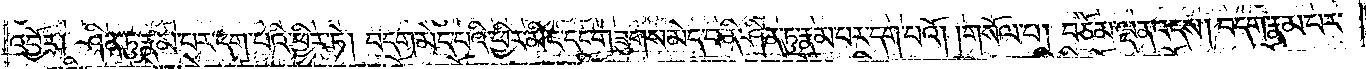འབྱོར། ཤིན་ཏུ་རྣམ་པར་དག་པའི་ཕྱིར་ཏེ། བདག་མེད་པའི་ཕྱིར་མིང་དང་གཟུགས་མེད་པ་ནི་ཤིན་ཏུ་རྣམ་པར་དག་པའོ། །གསོལ་པ། བཅོམ་ལྡན་འདས། བདག་རྣམ་པར་
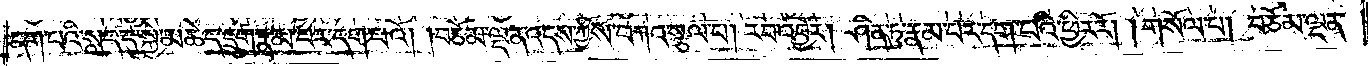དག་པའི་སླད་དུ་སྐྱེ་མཆེད་དྲུག་རྣམ་པར་དག་པའོ། །བཅོམ་ལྡན་འདས་ཀྱིས་བཀའ་སྩལ་པ། རབ་འབྱོར། ཤིན་ཏུ་རྣམ་པར་དག་པའི་ཕྱིར་རོ། །གསོལ་པ། བཅོམ་ལྡན་
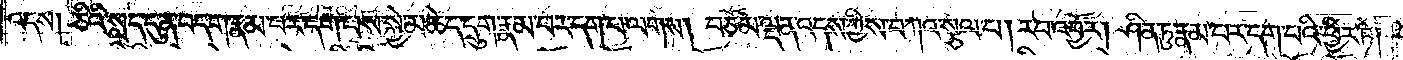འདས། ཅིའི་སླད་དུ་ན་བདག་རྣམ་པར་དག་པས་སྐྱེ་མཆེད་དྲུག་རྣམ་པར་དག་པ་ལགས། བཅོམ་ལྡན་འདས་ཀྱིས་བཀའ་སྩལ་པ། རབ་འབྱོར། ཤིན་ཏུ་རྣམ་པར་དག་པའི་ཕྱིར་ཏེ།
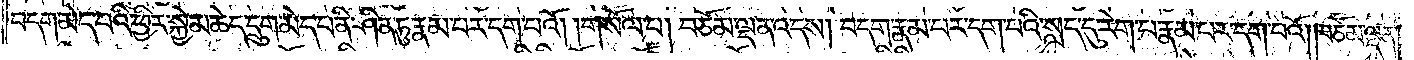བདག་མེད་པའི་ཕྱིར་སྐྱེ་མཆེད་དྲུག་མེད་པ་ནི་ཤིན་ཏུ་རྣམ་པར་དག་པའོ། །གསོལ་པ། བཅོམ་ལྡན་འདས། བདག་རྣམ་པར་དག་པའི་སླད་དུ་རེག་པ་རྣམ་པར་དག་པའོ། །བཅོམ་ལྡན་
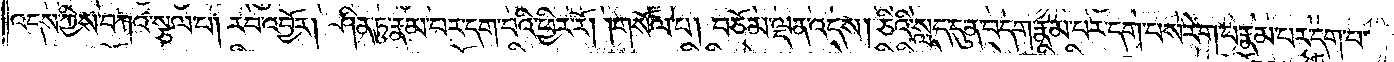འདས་ཀྱིས་བཀའ་སྩལ་པ། རབ་འབྱོར། ཤིན་ཏུ་རྣམ་པར་དག་པའི་ཕྱིར་རོ། །གསོལ་པ། བཅོམ་ལྡན་འདས། ཅིའི་སླད་དུ་ན་བདག་རྣམ་པར་དག་པས་རེག་པ་རྣམ་པར་དག་པ་
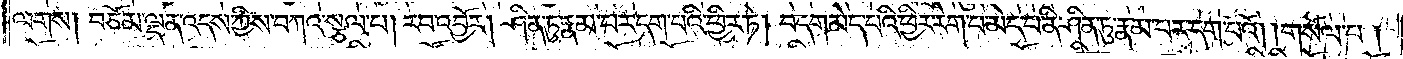ལགས། བཅོམ་ལྡན་འདས་ཀྱིས་བཀའ་སྩལ་པ། རབ་འབྱོར། ཤིན་ཏུ་རྣམ་པར་དག་པའི་ཕྱིར་ཏེ། བདག་མེད་པའི་ཕྱིར་རེག་པ་མེད་པ་ནི་ཤིན་ཏུ་རྣམ་པར་དག་པའོ། །གསོལ་པ།
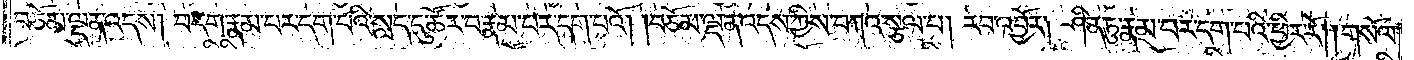བཅོམ་ལྡན་འདས། བདག་རྣམ་པར་དག་པའི་སླད་དུ་ཚོར་བ་རྣམ་པར་དག་པའོ། །བཅོམ་ལྡན་འདས་ཀྱིས་བཀའ་སྩལ་པ། རབ་འབྱོར། ཤིན་ཏུ་རྣམ་པར་དག་པའི་ཕྱིར་རོ། །གསོལ་
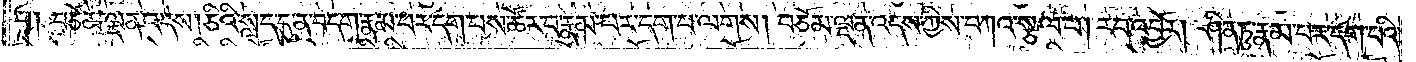པ། བཅོམ་ལྡན་འདས། ཅིའི་སླད་དུ་ན་བདག་རྣམ་པར་དག་པས་ཚོར་བ་རྣམ་པར་དག་པ་ལགས། བཅོམ་ལྡན་འདས་ཀྱིས་བཀའ་སྩལ་པ། རབ་འབྱོར། ཤིན་ཏུ་རྣམ་པར་དག་པའི་
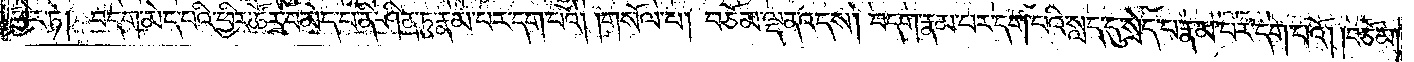ཕྱིར་ཏེ། བདག་མེད་པའི་ཕྱིར་ཚོར་བ་མེད་པ་ནི་ཤིན་ཏུ་རྣམ་པར་དག་པའོ། །གསོལ་པ། བཅོམ་ལྡན་འདས། བདག་རྣམ་པར་དག་པའི་སླད་དུ་སྲེད་པ་རྣམ་པར་དག་པའོ། །བཅོམ་
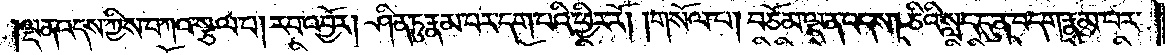ལྡན་འདས་ཀྱིས་བཀའ་སྩལ་པ། རབ་འབྱོར། ཤིན་ཏུ་རྣམ་པར་དག་པའི་ཕྱིར་རོ། །གསོལ་པ། བཅོམ་ལྡན་འདས། ཅིའི་སླད་དུ་ན་བདག་རྣམ་པར་
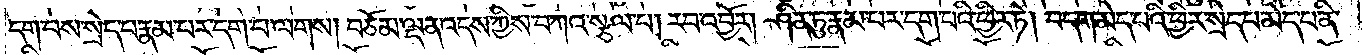དག་པས་སྲེད་པ་རྣམ་པར་དག་པ་ལགས། བཅོམ་ལྡན་འདས་ཀྱིས་བཀའ་སྩལ་པ། རབ་འབྱོར། ཤིན་ཏུ་རྣམ་པར་དག་པའི་ཕྱིར་ཏེ། བདག་མེད་པའི་ཕྱིར་སྲེད་པ་མེད་པ་ནི་
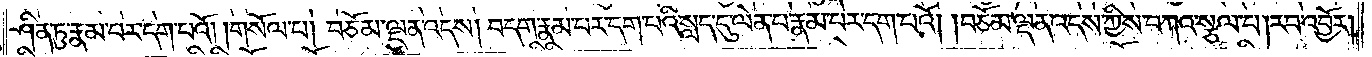ཤིན་ཏུ་རྣམ་པར་དག་པའོ། །གསོལ་པ། བཅོམ་ལྡན་འདས། བདག་རྣམ་པར་དག་པའི་སླད་དུ་ལེན་པ་རྣམ་པར་དག་པའོ། །བཅོམ་ལྡན་འདས་ཀྱིས་བཀའ་སྩལ་པ། རབ་འབྱོར།
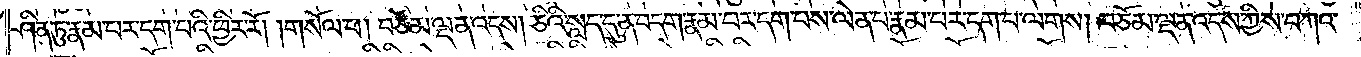ཤིན་ཏུ་རྣམ་པར་དག་པའི་ཕྱིར་རོ། །གསོལ་པ། བཅོམ་ལྡན་འདས། ཅིའི་སླད་དུ་ན་བདག་རྣམ་པར་དག་པས་ལེན་པ་རྣམ་པར་དག་པ་ལགས། བཅོམ་ལྡན་འདས་ཀྱིས་བཀའ་
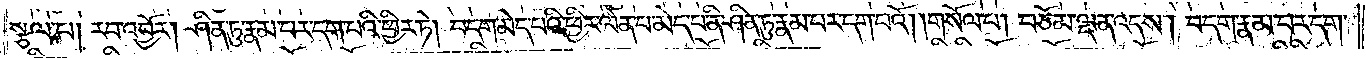སྩལ་པ། རབ་འབྱོར། ཤིན་ཏུ་རྣམ་པར་དག་པའི་ཕྱིར་ཏེ། བདག་མེད་པའི་ཕྱིར་ལེན་པ་མེད་པ་ནི་ཤིན་ཏུ་རྣམ་པར་དག་པའོ། །གསོལ་པ། བཅོམ་ལྡན་འདས། བདག་རྣམ་པར་དག་
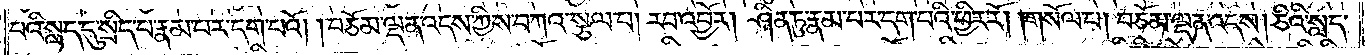པའི་སླད་དུ་སྲིད་པ་རྣམ་པར་དག་པའོ། །བཅོམ་ལྡན་འདས་ཀྱིས་བཀའ་སྩལ་པ། རབ་འབྱོར། ཤིན་ཏུ་རྣམ་པར་དག་པའི་ཕྱིར་རོ། །གསོལ་པ། བཅོམ་ལྡན་འདས། ཅིའི་སླད་
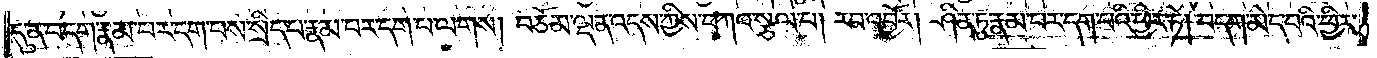དུ་ན་བདག་རྣམ་པར་དག་པས་སྲིད་པ་རྣམ་པར་དག་པ་ལགས། བཅོམ་ལྡན་འདས་ཀྱིས་བཀའ་སྩལ་པ། རབ་འབྱོར། ཤིན་ཏུ་རྣམ་པར་དག་པའི་ཕྱིར་ཏེ། བདག་མེད་པའི་ཕྱིར་
